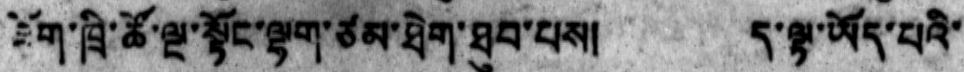ཟོག་ཁྲི་ཚོ་ལྔ་སྟོང་ལྷག་ཙམ་ཐེག་ཐུབ་པས།   ད་ལྟ་ཡོད་པའི་
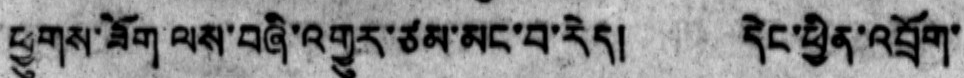ཕྱུགས་ཟོག་ལས་བཞི་འགྱུར་ཙམ་མང་བ་རེད། དེང་ཕྱིན་འབྲོག་
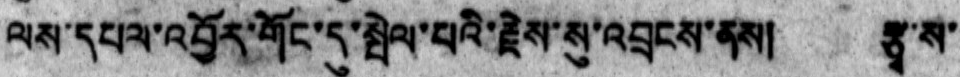ལས་དཔལ་འབྱོར་གོང་དུ་སྤེལ་པའི་རྗེས་སུ་འབྲངས་ནས། རྩྭ་ས་
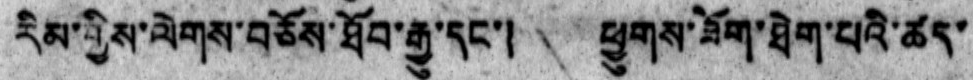རིམ་གྱིས་ལེགས་བཅོས་ཐོབ་རྒྱུ་དང་།  ཕྱུགས་ཟོག་ཐེག་པའི་ཚད་
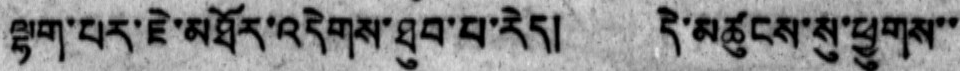ལྷག་པར་ཇེ་མཐོར་འདེགས་ཐུབ་པ་རེད།  དེ་མཚུངས་སུ་ཕྱུགས་་
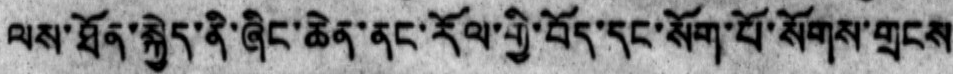ལས་ཐོན་སྐྱེད་ནི་ཞིང་ཆེན་ནང་རོལ་གྱི་བོད་དང་སོག་པོ་སོགས་གྲངས
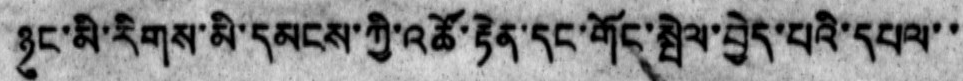ཉུང་མི་རིགས་མི་དམངས་ཀྱི་འཚོ་རྟེན་དང་གོང་སྤེལ་བྱེད་པའི་དཔལ་་
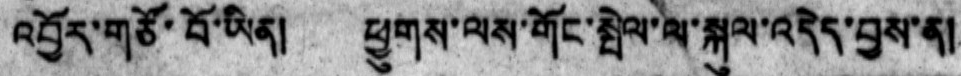འབྱོར་གཙོ་བོ་ཡིན།  ཕྱུགས་ལས་གོང་སྤེལ་ལ་སྐུལ་འདེད་བྱས་ན།
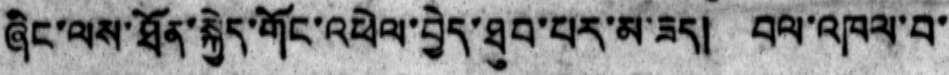ཞིང་ལས་ཐོན་སྐྱེད་གོང་འཕེལ་བྱེད་ཐུབ་པར་མ་ཟད།  བལ་འཁལ་བ་
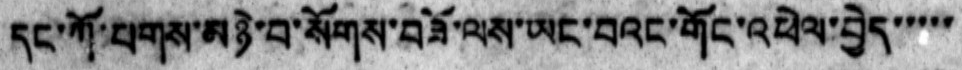དང་ཀོ་པགས་མཉེ་བ་སོགས་བཟོ་ལས་ཡང་བའང་གོང་འཕེལ་བྱེད་་་་་
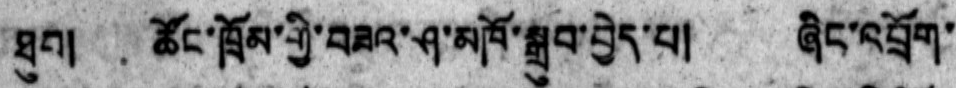ཐུབ།  ཚོང་ཁྲོམ་གྱི་བཟའ་ཤ་མཁོ་སྒྲུབ་བྱེད་པ།  ཞིང་འབྲོག་
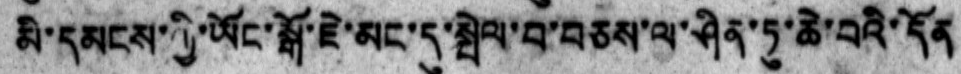མི་དམངས་ཀྱི་ཡོང་སྒོ་ཇེ་མང་དུ་སྤེལ་བ་བཅས་ལ་ཤིན་ཏུ་ཆེ་བའི་དོན
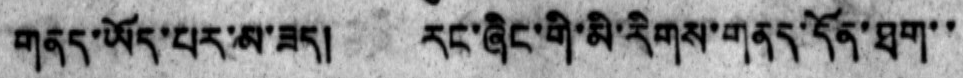གནད་ཡོད་པར་མ་ཟད། རང་ཞིང་གི་མི་རིགས་གནད་དོན་ཐག་་
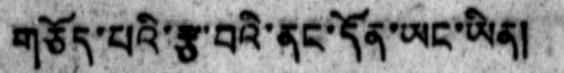གཅོད་པའི་རྩ་བའི་ནང་དོན་ཡང་ཡིན།
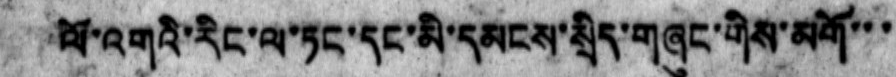ལོ་འགའི་རིང་ལ་ཏང་དང་མི་དམངས་སྲིད་གཞུང་གིས་མགོ་་་
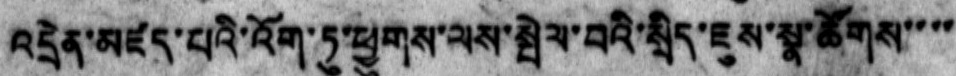འདྲེན་མཛད་པའི་འོག་ཏུ་ཕྱུགས་ལས་སྤེལ་བའི་སྲིད་ཇུས་སྣ་ཚོགས་་་་
